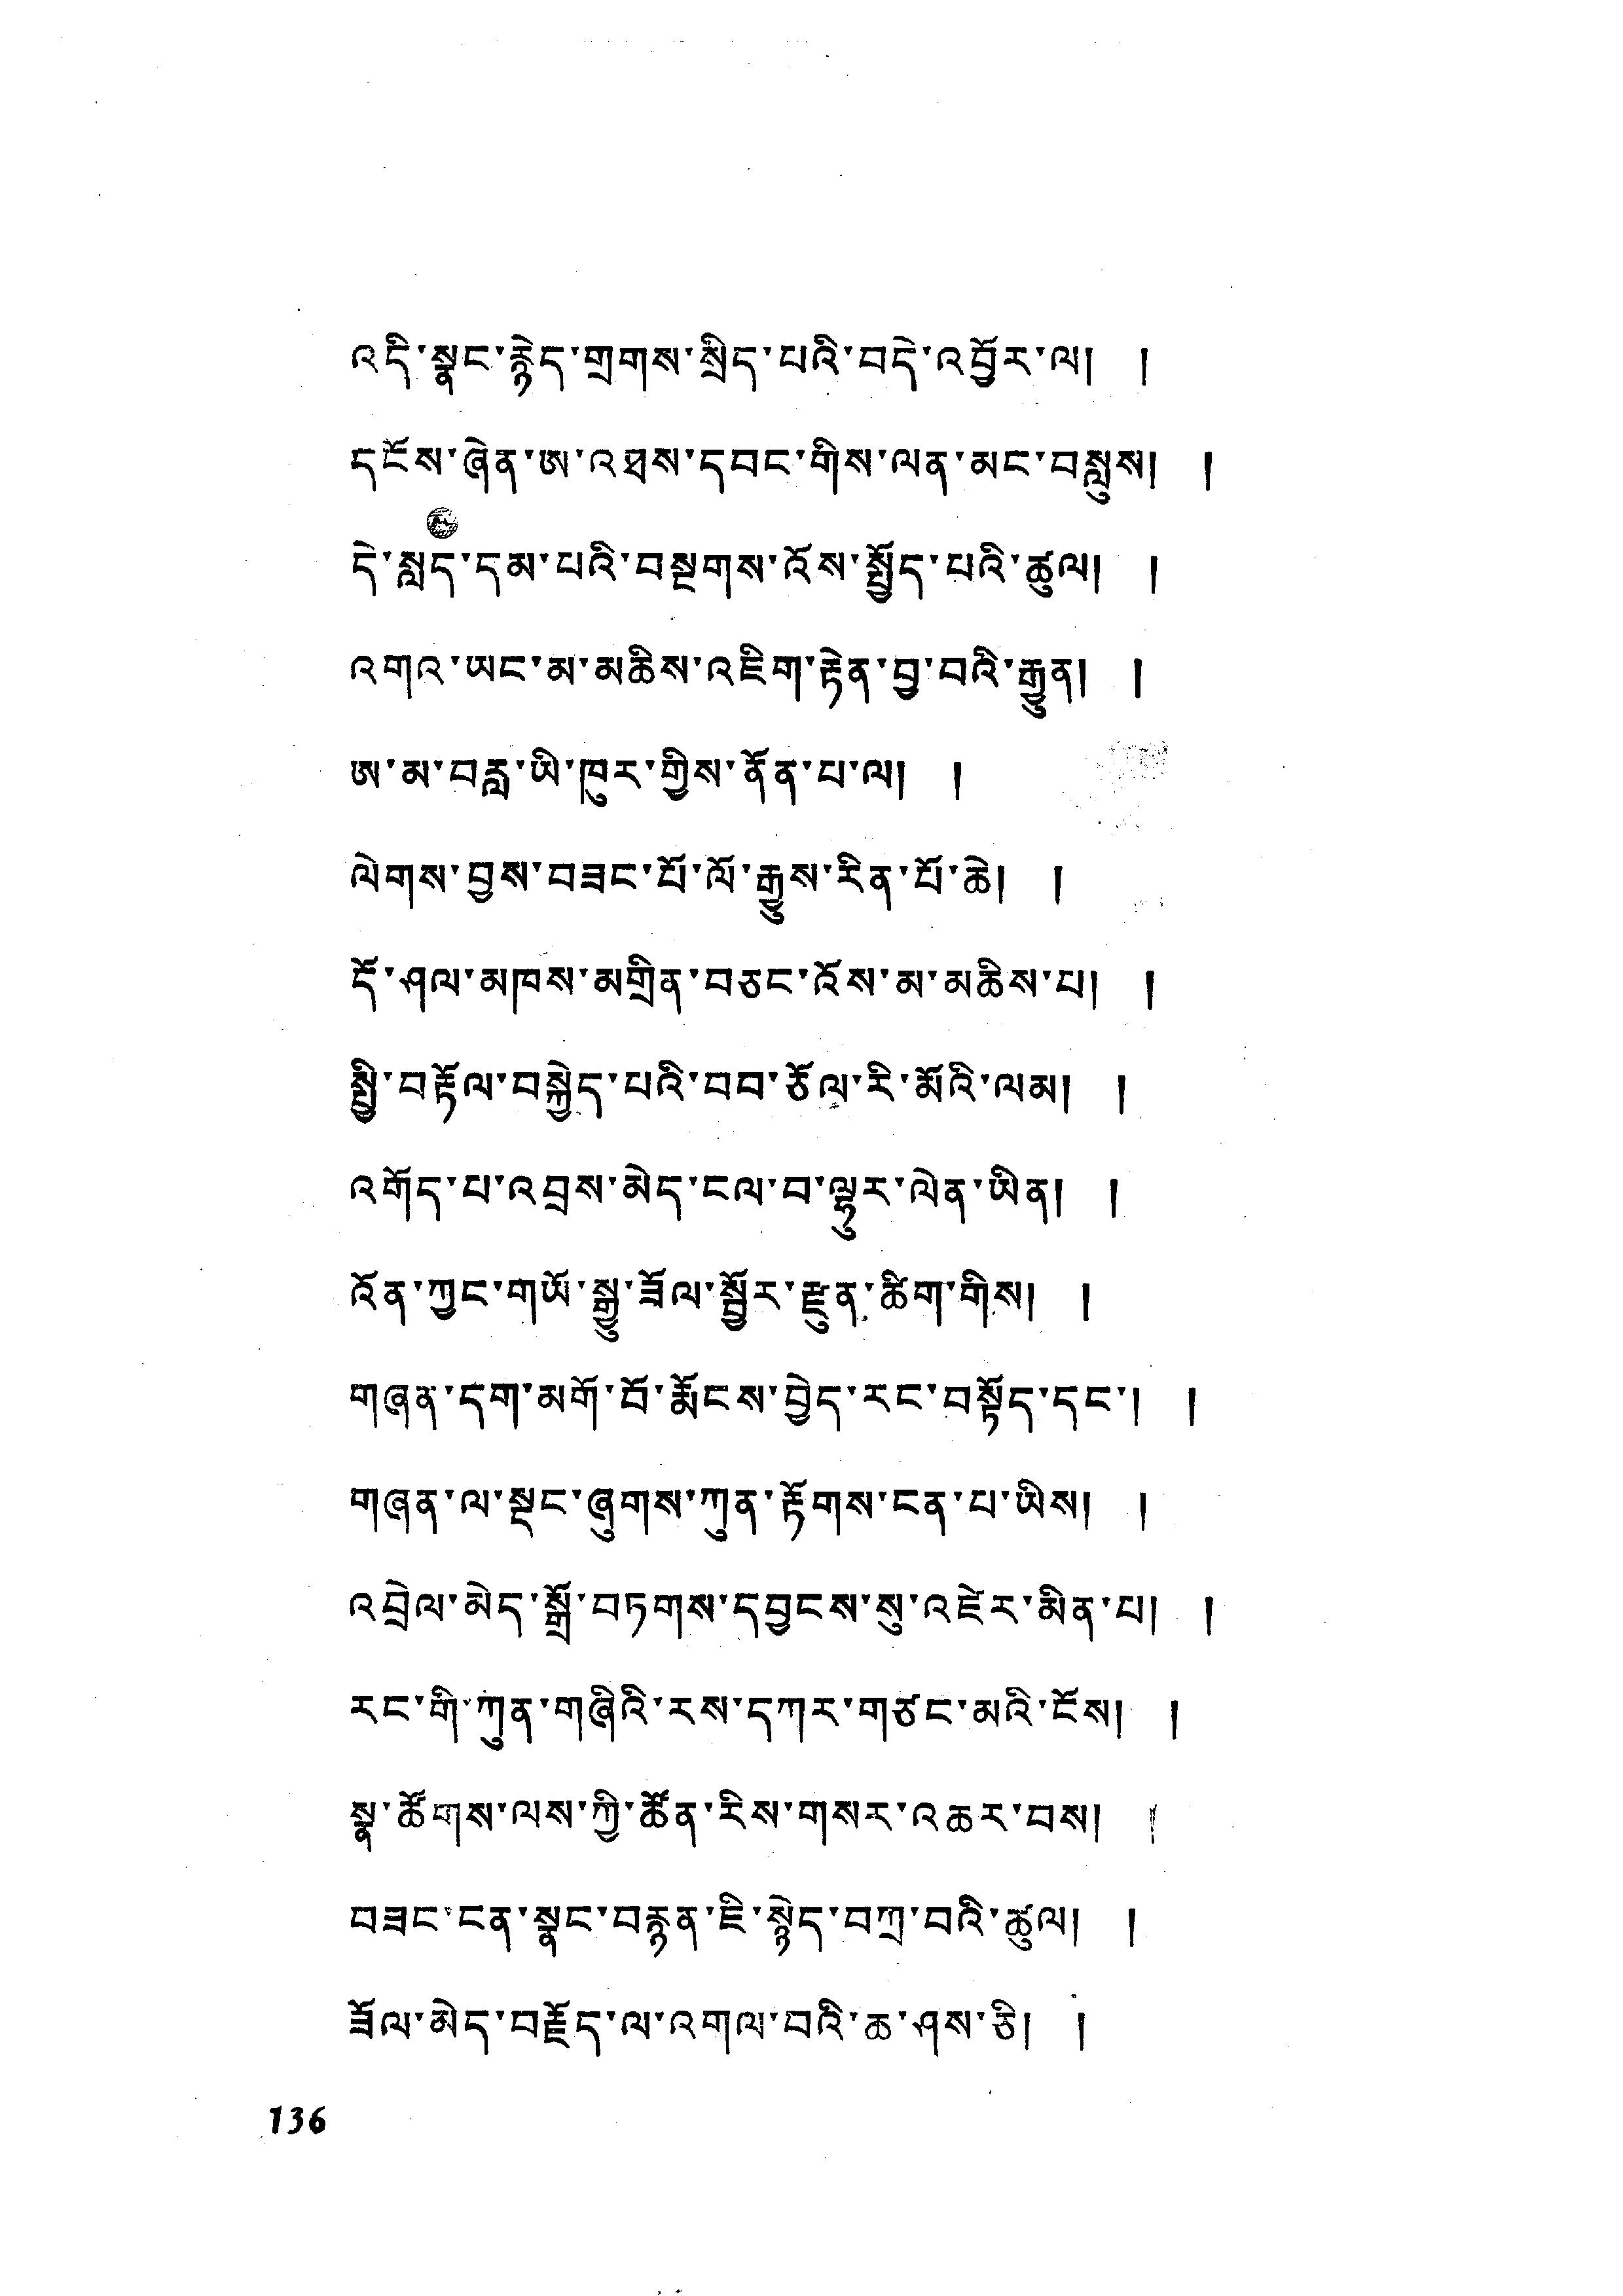འདི་སྣང་རྙེད་གྲགས་སྲིད་པའི་བདེ་འབྱོར་ལ། །
དངོས་ཞེན་ཨ་འཐས་དབང་གིས་ལན་མང་བསླུས། །
དེ་སླད་དམ་པའི་བསྔགས་འོས་སྤྱོད་པའི་ཚུལ། །
འགའ་ཡང་མ་མཆིས་འཇིག་རྟེན་བྱ་བའི་རྒྱུན། །
ཨ་མ་བརླ་ཡི་ཁུར་གྱིས་ནོན་པ་ལ། །
ལེགས་བྱས་བཟང་པོ་ལོ་རྒྱུས་རིན་པོ་ཆེ། །
དོ་ཤལ་མཁས་མགྲིན་བཅང་འོས་མ་མཆིས་པ། །
སྤྱི་བརྟོལ་བསྐྱེད་པའི་བབ་ཅོལ་རི་མོའི་ལམ། །
འགོད་པ་འབྲས་མེད་ངལ་བ་ལྷུར་ལེན་ཡིན། །
འོན་ཀྱང་གཡོ་སྒྱུ་ཟོལ་སྦྱོར་རྫུན་ཚིག་གིས། །
གཞན་དག་མགོ་བོ་རྨོངས་བྱེད་རང་བསྟོད་དང་། །
གཞན་ལ་སྡང་ཞུགས་ཀུན་རྟོགས་ངན་པ་ཡིས། །
འབྲེལ་མེད་སྒྲོ་བཏགས་དབྱངས་སུ་འཛེར་མིན་པ། །
རང་གི་ཀུན་གཞིའི་རས་དཀར་གཙང་མའི་ངོས། །
སྣ་ཚོགས་ལས་ཀྱི་ཚོན་རིས་གསར་འཆར་བས། །
བཟང་ངན་སྣང་བརྙན་ཇི་སྙེད་བཀྲ་བའི་ཚུལ། །
ཟོལ་མེད་བརྗོད་ལ་འགལ་བའི་ཆ་ཤས་ཅི། །
136
